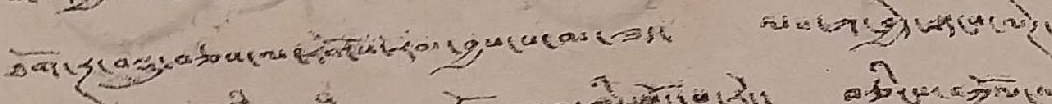ཐོག་རྔ་བསྡུ་བཅས་ལ་རོགས་རམ་བྱས་པ་མ་ཟད་ ལས་ཀ་བྱེད་སྟངས་ལེཊ་
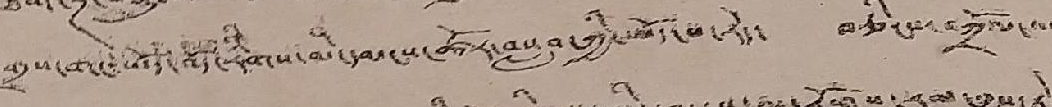གྲས་གང་ཡོད་བོད་རིགས་མི་དམངས་ཚོར་བསླབ་ཀྱི་ཡོད་པ་རེད་ བཅིངས་བཀྲོལ་་་་
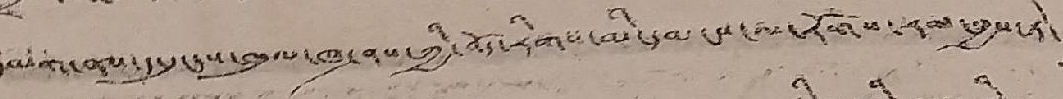དམག་ནས་ད་དུང་ས་ཁུལ་ཁ་ཤས་ཀྱི་བོད་རིགས་མི་དམངས་ལ་རོགས་རམ་བྱས་ཏེ་
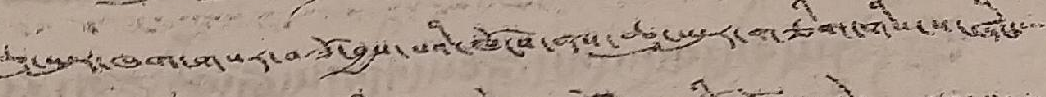ཆུ་ཡུར་ཁག་གསར་བཟོ་བྱས་པའི་ཁོངས་ནས་ཆུ་ཡུར་གཅིག་གིས་ས་ཞིང་་་་་
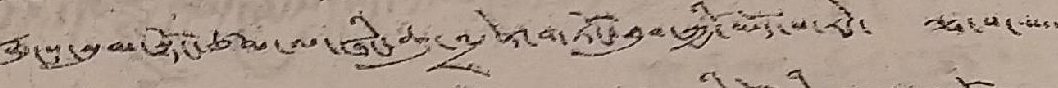རྨུངས་སུམ་སྟོང་ཙམ་ལ་ཞིང་ཆུ་འདྲེན་གཏོང་ཐུབ་ཀྱི་ཡོད་པ་རེད་ ཟམ་པ་་་་་་
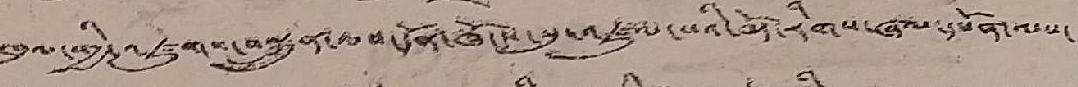ཁུལ་གྱི་འཛུགས་བསྐྲུན་ལས་དོན་ཁོངས་སུ་འཛུལ་པའི་བོད་རིགས་ཞལ་དཔོན་ལས་
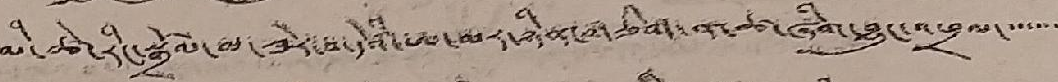མི་ཚེ་རིང་སྒྲོལ་མ་ཟེར་བ་དེའི་ཨ་མར་ཉིན་གཅིག་ན་ཚ་ཞིག་བྱུང་འཕྲl་་་་་་་
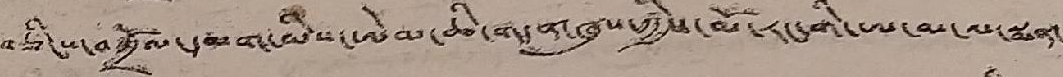བཅིངས་བཀྲོལ་དམག་མིས་ཨེམ་ཆི་གདན་ཞུས་ཀྱིས་མོ་རང་གི་ཨ་མ་ལ་སྨན་
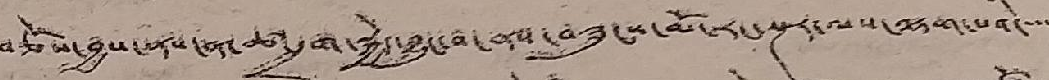བཅོས་བྱས་ནས་ན་ཚ་དྲག་སྐྱེད་བྱུང་བ་ནས་བཟུངས་མོ་རང་སྔར་ལས་ལྷག་པའི་་་་
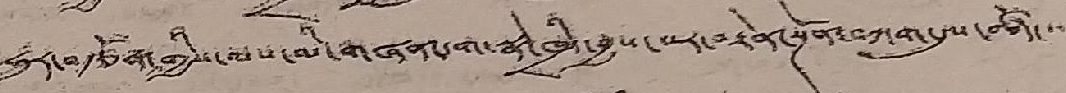ཧྲུར་བརྩོན་གྱི་ལས་མི་གཞན་དག་སྣེ་ཁྲིད་བྱས་པར་བརྟེན་སྔོན་བཀག་དུས་ཚོད་་་
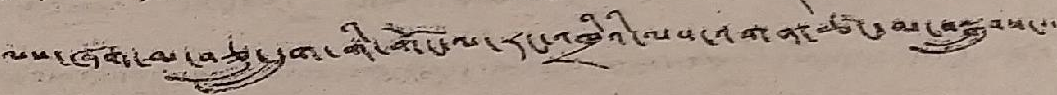ལས་ཞག་མ་བཅུ་དྲུག་གི་གོང་ལ་རང་འཁྲིའི་ལས་འགན་ཚང་མ་བསྒྲུབས་་་
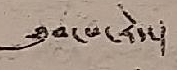ཐུབ་པ་རེད་།
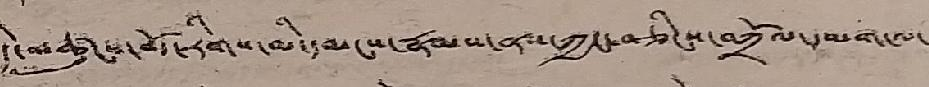དེ་མཚུངས་བོད་རིགས་མི་དམངས་རྣམས་ནས་ཀྱང་བཅིངས་བཀྲོལ་དམག་ལ་
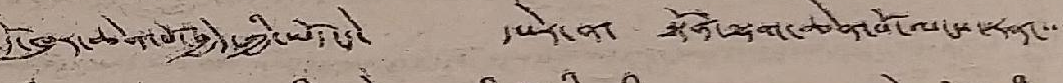དོ་ཁུར་ཆེན་པོ་བྱེད་ཀྱི་ཡོད་པ་དེ་ དཔེར་ན་ སྟོན་ལྷག་ཆེན་པོ་ལངས་རན་་་་
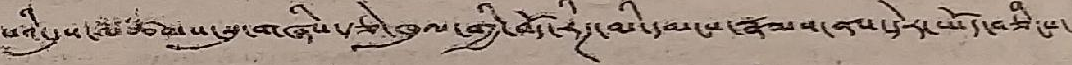པའི་དུས་མཚམས་སུ་གཞིས་རྩེ་ཁུལ་གྱི་བོད་རིཊ་མི་དམངས་རྣམས་ནས་དེར་ཡོད་བཅིངས་
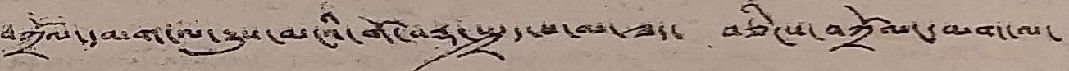བཀྲོལ་དམག་ལ་རྒྱུས་མངའི་གོ་བརྡ་སྤྲད་པ་མ་ཟད་ བཅིངས་བཀྲོལ་དམག་ལ་
